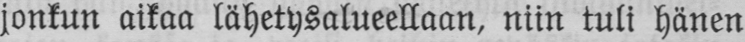jonkun aikaa lähetysalueellaan, niin tuli hänen
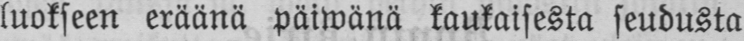luokseen eräänä päiwänä kaukaisesta seudusta
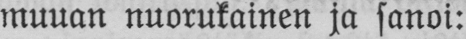muuan nuorukainen ja sanoi:
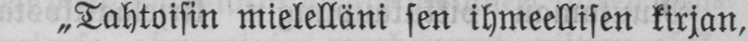„ Tahtoisin mielelläni sen ihmeellisen kirjan,
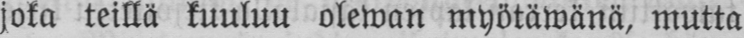joka teillä kuuluu olewan myötäwänä, mutta
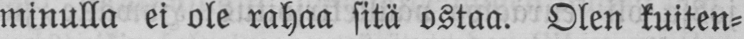minulla ei ole rahaa sitä ostaa. Olen kuiten-
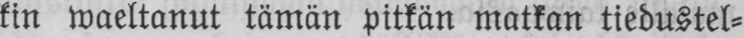kin waeltanut tämän pitkän matkan tiedustel-
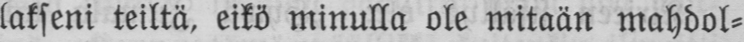lakseni teiltä, eikö minulla ole mitään mahdol-
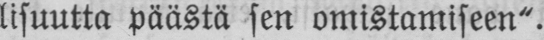lisuutta päästä sen omistamiseen".
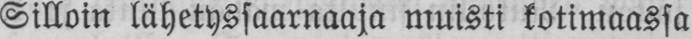Silloin lähetyssaarnaaja muisti kotimaassa
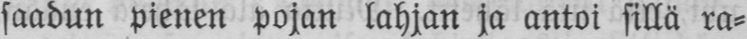saadun pienen pojan lahjan ja antoi sillä ra-
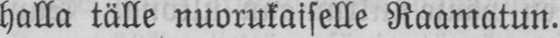halla tälle nuorukaiselle Raamatun.
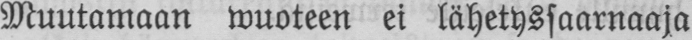Muutamaan wuoteen ei lähetyssaarnaaja
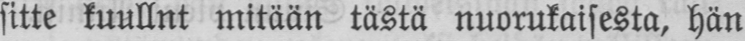sitte kuullnt mitään tästä nuorukaisesta, hän
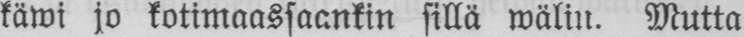käwi jo kotimaassaankin sillä wälin. Mutta
